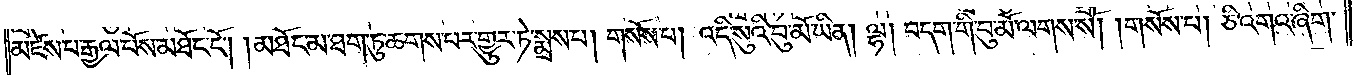མཛེས་པ་རྒྱལ་པོས་མཐོང་ངོ༌། །མཐོང་མ་ཐག་ཏུ་ཆགས་པར་གྱུར་ཏེ་སྨྲས་པ། གསོས་པ། འདི་སུའི་བུ་མོ་ཡིན། ལྷ། བདག་གི་བུ་མོ་ལགས་སོ། །གསོས་པ། ཅི་འགའ་ཞིག་
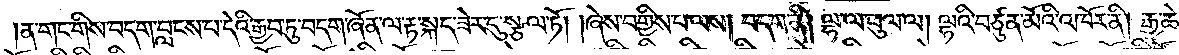ན་གང་གིས་བདག་བླངས་པ་དེའི་རྒྱབ་ཏུ་བདག་ཞོན་ལ་རྟ་སྐད་ཟེར་དུ་སྩལ་ཏོ། །ཞེས་བགྱིས་པ་ལས། བདག་ནི། ལྷ་ལ་ཕུལ་ལ། ལྷའི་བཙུན་མོའི་འཁོར་ནི། རྒྱ་ཆེ་
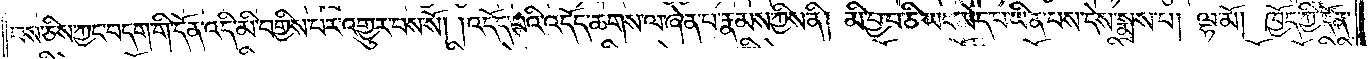བས་ཅིས་ཀྱང་བདག་གི་དོན་འདི་མི་བགྱིས་པར་འགྱུར་བས་སོ། །འདོད་པའི་འདོད་ཆགས་ལ་ཞེན་པ་རྣམས་ཀྱིས་ནི། མི་བྱ་བ་ཅི་ཡང་མེད་པ་ཡིན་པས་དེས་སྨྲས་པ། ལྷ་མོ། ཁྱོད་ཀྱི་དོན་
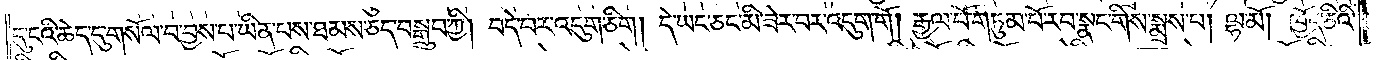དུ་ངའི་ཆེད་དུ་གསོལ་བ་བྱས་པ་ཡིན་པས་ཐམས་ཅད་བསྒྲུབ་ཀྱི། བདེ་བར་འདུག་ཅིག། དེ་ཡང་ཅང་མི་ཟེར་བར་འདུག་གོ། རྒྱལ་པོ་གཏུམ་པོ་རབ་སྣང་གིས་སྨྲས་པ། ལྷ་མོ། ཁྱོད་ཅིའི་
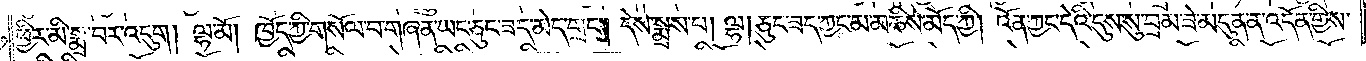ཕྱིར་མི་སྨྲ་བར་འདུག། ལྷ་མོ། ཁྱོད་ཀྱི་གསོལ་བ་གཞན་ཡང་ཅུང་ཟད་མེད་གྲང༌། དེས་སྨྲས་པ། ལྷ། ཅུང་ཟད་ཀྱང་མ་མཆིས་མོད་ཀྱི། འོན་ཀྱང་དེའི་དུས་སུ་བྲམ་ཟེ་མདུན་ན་འདོན་གྱིས་
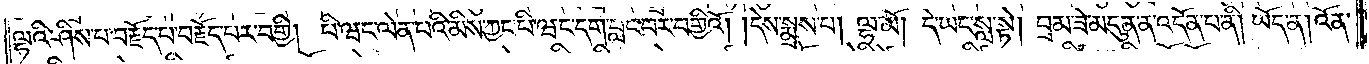ལྷའི་ཤིས་པ་བརྗོད་པ་བརྗོད་པར་བགྱི། པི་ཝང་ལེན་པའི་མིས་ཀྱང་པི་ཝང་དག་བླང་བར་བགྱིའོ། །དེས་སྨྲས་པ། ལྷ་མོ། དེ་ཡང་སླ་སྟེ། བྲམ་ཟེ་མདུན་ན་འདོན་པ་ནི། ཡོད་ན། འོན་
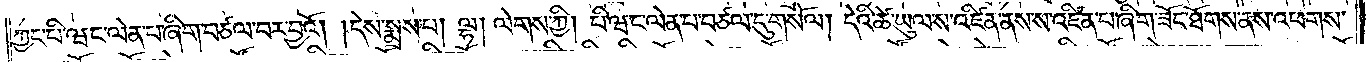ཀྱང་པི་ཝང་ལེན་པ་ཞིག་བཙལ་བར་བྱའོ། །དེས་སྨྲས་པ། ལྷ། ལེགས་ཀྱི། པི་ཝང་ལེན་པ་བཙལ་དུ་གསོལ། དེའི་ཚེ་ཡུལ་ས་འཛིན་ནས་ས་འཛིན་པ་ཞིག་ཟོང་ཐོགས་ནས་འཕགས་
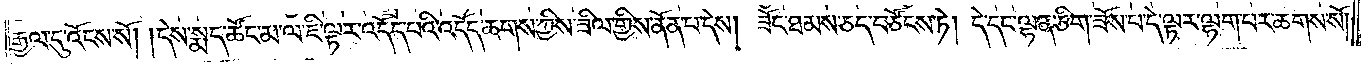རྒྱལ་དུ་འོངས་སོ། །དེས་སྨད་ཚོང་མ་ལ་ཇི་ལྟར་འདོད་པའི་འདོད་ཆགས་ཀྱིས་ཟིལ་གྱིས་ནོན་པ་དེས། ཟོང་ཐམས་ཅད་བཙོངས་ཏེ། དེ་དང་ལྷན་ཅིག་ཟོས་པ་དེ་ལྟར་ལྷག་པར་ཆགས་སོ།
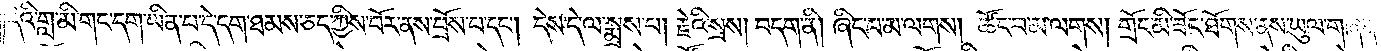དེའི་གླ་མི་གང་དག་ཡིན་པ་དེ་དག་ཐམས་ཅད་ཀྱིས་བོར་ནས་བྲོས་པ་དང༌། དེས་དེ་ལ་སྨྲས་པ། རྗེའི་སྲས། བདག་ནི། ཞིང་པ་མ་ལགས། ཚོང་བ་མ་ལགས། གྲོང་མི་ཟོང་ཐོགས་ནས་ཡུལ་གཞན་
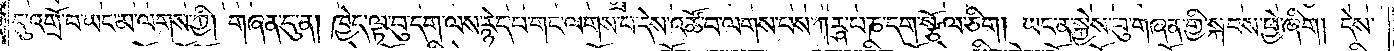དུ་འགྲོ་བ་ཡང་མ་ལགས་ཀྱི། གཞན་དུ་ན། ཁྱེད་ལྟ་བུ་དག་ལས་རྙེད་པ་གང་ལགས་པ་དེས་འཚོ་བ་ལགས་པས་ཀརྴ་པ་ཎ་དག་སྩོལ་ཅིག། ཡང་ན་སྐྱེས་བུ་གཞན་གྱི་སྐབས་ཕྱེ་ཞིག། དེས་
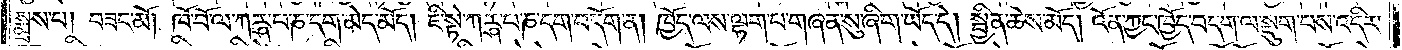སྨྲས་པ། བཟང་མོ། ཁོ་བོ་ལ་ཀརྴ་པ་ཎ་དག་མེད་མོད། ཇི་སྟེ་ཀརྴ་པ་ཎ་དག་བདོག་ན། ཁྱོད་ལས་ལྷག་པ་གཞན་སུ་ཞིག་ཡོད་དེ། སྦྱིན་ཆེས་མོད། འོན་ཀྱང་ཁྱོད་བདག་ལ་སྡུག་པས་འདིར་
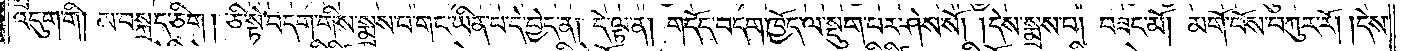འདུག་གི། མ་བསྐྲད་ཅིག། ཅི་སྟེ་བདག་གིས་སྨྲས་པ་གང་ཡིན་པ་དེ་བྱེད་ན། དེ་ལྟ་ན། གདོད་བདག་ཁྱོད་ལ་སྡུག་པར་ཤེས་སོ། །དེས་སྨྲས་པ། བཟང་མོ། མགོ་བོས་བཀུར་རོ། །དེས་
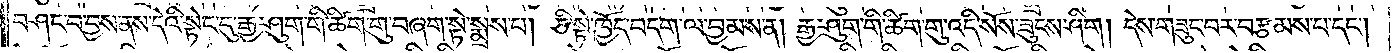བཤང་བ་བྱས་ནས་དེའི་སྟེང་དུ་རྒྱ་ཤུག་གི་ཚིག་གུ་བཞག་སྟེ་སྨྲས་པ། ཅི་སྟེ་ཁྱོད་བདག་ལ་བྱམས་ན། རྒྱ་ཤུག་གི་ཚིག་གུ་འདི་སོས་ཟུངས་ཤིག། དེས་གཟུང་བར་བརྩམས་པ་དང༌།
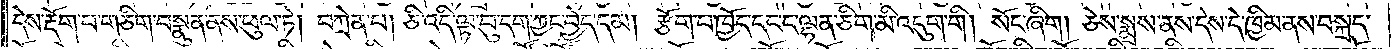དེས་རྡོག་པ་གཅིག་བསྣུན་ནས་ཕུལ་ཏེ། བཀྲེན་པ། ཅི་འདི་ལྟ་བུ་དག་ཀྱང་བྱེད་དམ། རྩོག་པ་ཁྱོད་དང་ང་ལྷན་ཅིག་མི་འདུག་གི། སོང་ཞིག། ཅེས་སྨྲས་ནས་དེས་དེ་ཁྱིམ་ནས་བསྐྲད་
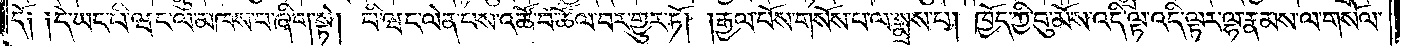དོ༑ ༑དེ་ཡང་པི་ཝང་ལ་མཁས་པ་ཞིག་སྟེ། པི་ཝང་ལེན་པས་འཚོ་བ་ཚོལ་བར་གྱུར་ཏོ། །རྒྱལ་པོས་གསོས་པ་ལ་སྨྲས་པ། ཁྱོད་ཀྱི་བུ་མོས་འདི་ལྟ་འདི་ལྟར་ལྷ་རྣམས་ལ་གསོལ་
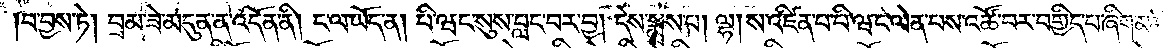བ་བྱས་ཏེ། བྲམ་ཟེ་མདུན་ན་འདོན་ནི། ང་ལ་ཡོད་ན། པི་ཝང་སུས་བླང་བར་བྱ། དེས་སྨྲས་པ། ལྷ། ས་འཛིན་པ་པི་ཝང་ལེན་པས་འཚོ་བར་བགྱིད་པ་ཞིག་མཆིས་
